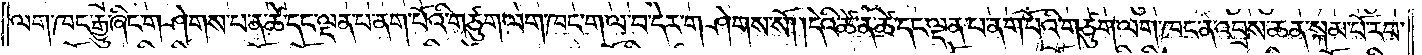ལག་ཁང་རྒྱུ་ཞིང་གཤེགས་པ་ན་ཚེ་དང་ལྡན་པ་ནག་པོའི་གཙུག་ལག་ཁང་ག་ལ་བ་དེར་གཤེགས་སོ། །དེའི་ཚེ་ན་ཚེ་དང་ལྡན་པ་ནག་པོའི་གཙུག་ལག་ཁང་ན་འབྲས་ཆན་སྐམ་པོ་རབ་
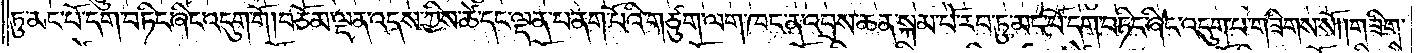ཏུ་མང་པོ་དག་བཏིང་ཞིང་འདུག་གོ །བཅོམ་ལྡན་འདས་ཀྱིས་ཚེ་དང་ལྡན་པ་ནག་པོའི་གཙུག་ལག་ཁང་ན་འབྲས་ཆན་སྐམ་པོ་རབ་ཏུ་མང་པོ་དག་བཏིང་ཞིང་འདུག་པ་གཟིགས་སོ༎གཟིགས་
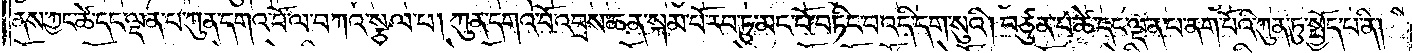ནས་ཀྱང་ཚེ་དང་ལྡན་པ་ཀུན་དགའ་བོ་ལ་བཀའ་སྩལ་པ། ཀུན་དགའ་བོ་འབྲས་ཆན་སྐམ་པོ་རབ་ཏུ་མང་པོ་བཏིང་བ་འདི་དག་སུའི། བཙུན་པ་ཚེ་དང་ལྡན་པ་ནག་པོའི་ཀུན་ཏུ་སྤྱོད་པ་ནི།
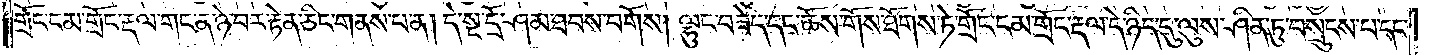གྲོང་ངམ་གྲོང་རྡལ་གང་ན་ཉེ་བར་རྟེན་ཅིང་གནས་པ་ན། དེ་སྔ་དྲོ་ཤམ་ཐབས་བགོས། ལྷུང་བཟེད་དང་ཆོས་གོས་ཐོགས་ཏེ་གྲོང་ངམ་གྲོང་རྡལ་དེ་ཉིད་དུ་ལུས་ཤིན་ཏུ་བསྲུངས་པ་དང་
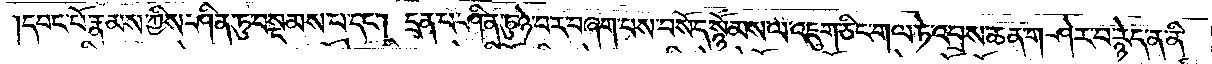དབང་པོ་རྣམས་ཀྱིས་ཤིན་ཏུ་བསྡམས་པ་དང༌། དྲན་པ་ཤིན་ཏུ་ཉེ་བར་བཞག་པས་བསོད་སྙོམས་ལ་འཇུག་ཅིང་གལ་ཏེ་འབྲས་ཆན་གཤེར་བ་རྙེད་ན་ནི་
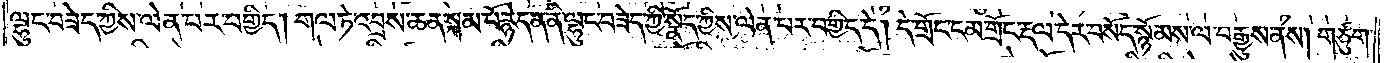ལྷུང་བཟེད་ཀྱིས་ལེན་པར་བགྱིད། གལ་ཏེ་འབྲས་ཆན་སྐམ་པོ་རྙེད་ན་ནི་ལྷུང་བཟེད་ཀྱི་སྣོད་ཀྱིས་ལེན་པར་བགྱིད་དེ། དེ་གྲོང་ངམ་གྲོང་རྡལ་དེར་བསོད་སྙོམས་ལ་བརྒྱུས་ནས། གཙུག་
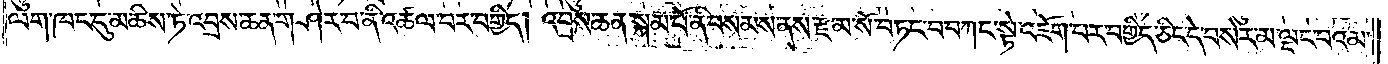ལག་ཁང་དུ་མཆིས་ཏེ་འབྲས་ཆན་གཤེར་བ་ནི་འཚལ་བར་བགྱིད། འབྲས་ཆན་སྐམ་པོ་ནི་བསམས་ནས་རྫ་མ་སོ་བཏང་བ་བཀང་སྟེ་འཇོག་པར་བགྱིད་ཅིང་དེ་བསེར་མ་ལྡང་བའམ་
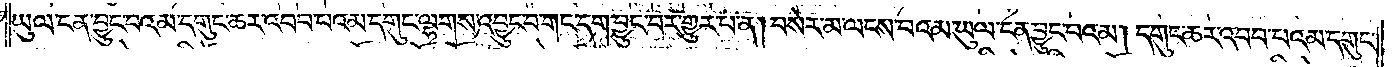ཡུལ་ངན་བྱུང་བའམ་དགུང་ཆར་འབབ་པའམ་དགུང་ལྷགས་འབྱུང་བ་གང་དག་བྱུང་བར་གྱུར་བ་ན། བསེར་མ་ལངས་པའམ་ཡུལ་ངན་བྱུང་བའམ། དགུང་ཆར་འབབ་པའམ་དགུང་
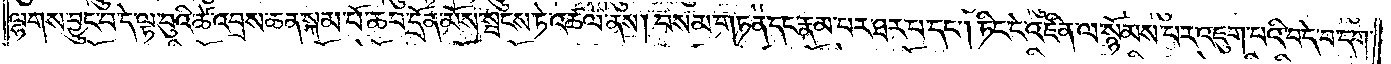ལྷགས་བྱུང་བ་དེ་ལྟ་བུའི་ཚེ་འབྲས་ཆན་སྐམ་པོ་ཆབ་དྲོན་མོས་སྦངས་ཏེ་འཚལ་ནས། བསམ་གཏན་དང་རྣམ་པར་ཐར་པ་དང༌། ཏིང་ངེ་འཛིན་ལ་སྙོམས་པར་འཇུག་པའི་བདེ་བ་དག་
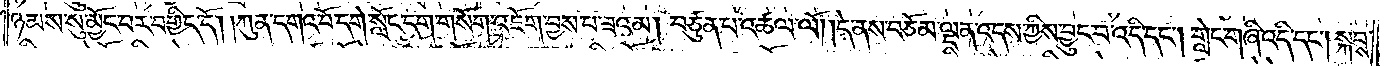ཉམས་སུ་མྱོང་བར་བགྱིད་དོ། །ཀུན་དགའ་བོ་དགེ་སློང་དག་གསོག་འཇོག་བྱས་པ་ཟའམ། བཙུན་པ་འཚལ་ལོ། །དེ་ནས་བཅོམ་ལྡན་འདས་ཀྱིས་བྱུང་བ་འདི་དང༌། གླེང་གཞི་འདི་དང༌། སྐབས་
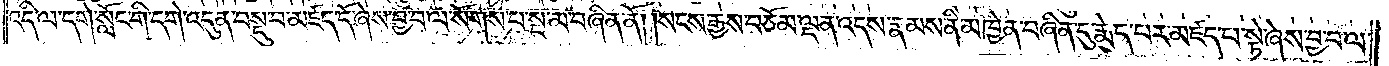འདི་ལ་དགེ་སློང་གི་དགེ་འདུན་བསྡུ་བ་མཛད་དོ་ཞེས་བྱ་བ་ལ་སོགས་པ་སྔ་མ་བཞིན་ནོ། །སངས་རྒྱས་བཅོམ་ལྡན་འདས་རྣམས་ནི་མཁྱེན་བཞིན་དུ་རྨེད་པར་མཛད་པ་སྟེ་ཞེས་བྱ་བ་ལ་
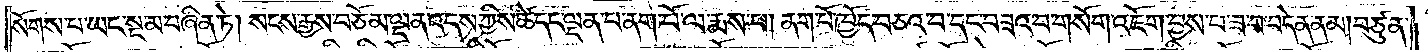སོགས་པ་ཡང་སྔ་མ་བཞིན་ཏེ། སངས་རྒྱས་བཅོམ་ལྡན་འདས་ཀྱིས་ཚེ་དང་ལྡན་པ་ནག་པོ་ལ་རྨས་པ། ནག་པོ་ཁྱོད་བཅའ་བ་དང་བཟའ་བ་གསོག་འཇོག་བྱས་པ་ཟ་བ་བདེན་ནམ། བཙུན་
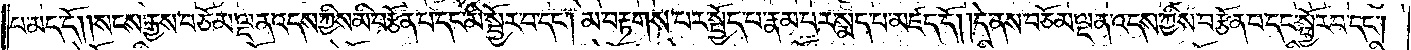པ་མད་དོ། །སངས་རྒྱས་བཅོམ་ལྡན་འདས་ཀྱིས་མི་བརྩོན་པ་དང་མི་སྦྱོར་བ་དང༌། མ་བརྟགས་པར་སྤྱོད་པ་རྣམ་པར་སྨད་པ་མཛད་དོ། །དེ་ནས་བཅོམ་ལྡན་འདས་ཀྱིས་བརྩོན་པ་དང་སྦྱོར་བ་དང༌།
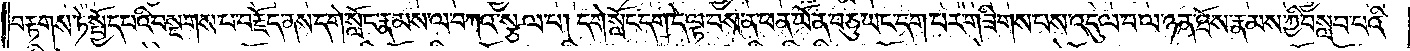བརྟགས་ཏེ་སྤྱོད་པའི་བསྔགས་པ་བརྗོད་ནས་དགེ་སློང་རྣམས་ལ་བཀའ་སྩལ་པ། དགེ་སློང་དག་དེ་ལྟ་བས་ན་ཕན་ཡོན་བཅུ་ཡང་དག་པར་གཟིགས་པས་འདུལ་བ་ལ་ཉན་ཐོས་རྣམས་ཀྱི་བསླབ་པའི་
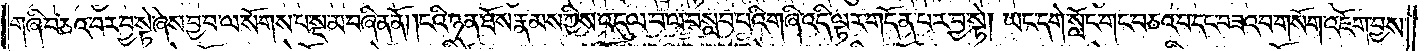གཞི་བཅའ་བར་བྱ་སྟེ་ཞེས་བྱ་བ་ལ་སོགས་པ་སྔ་མ་བཞིན་ནོ༎ངའི་ཉན་ཐོས་རྣམས་ཀྱིས་འདུལ་བ་ལ་བསླབ་པའི་གཞི་འདི་ལྟར་གདོན་པར་བྱ་སྟེ། ཡང་དགེ་སློང་གང་བཅའ་བ་དང་བཟའ་བ་གསོག་འཇོག་བྱས་
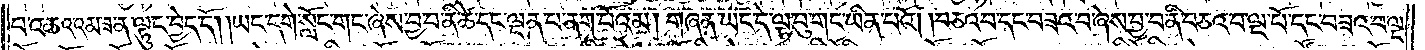པ་འཆའ་འམ་ཟ་ན་ལྟུང་བྱེད་དོ། །ཡང་དགེ་སློང་གང་ཞེས་བྱ་བ་ནི་ཚེ་དང་ལྡན་པ་ནག་པོའམ། གཞན་ཡང་དེ་ལྟ་བུ་གང་ཡིན་པའོ། །བཅའ་བ་དང་བཅའ་བ་ཞེས་བྱ་བ་ནི་བཅའ་བ་ལྔ་པོ་དང་བཟའ་བ་ལྔ་
